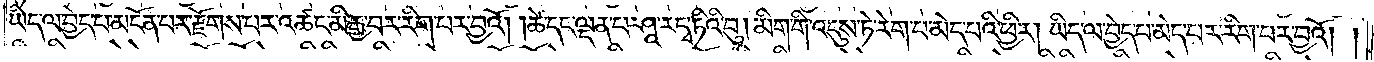ཡིད་ལ་བྱེད་པ་མངོན་པར་རྫོགས་པར་འཚང་མི་རྒྱ་བར་རིག་པར་བྱའོ། །ཚེ་དང་ལྡན་པ་ཤཱ་ར་དྭ་ཏིའི་བུ། མིག་གི་འདུས་ཏེ་རེག་པ་མེད་པའི་ཕྱིར། ཡིད་ལ་བྱེད་པ་མེད་པར་རིག་པར་བྱའོ། །
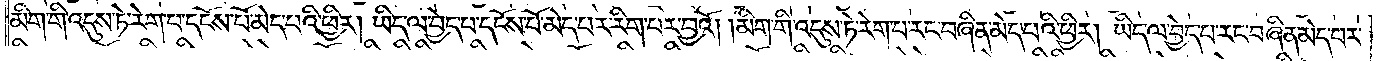མིག་གི་འདུས་ཏེ་རེག་པ་དངོས་པོ་མེད་པའི་ཕྱིར། ཡིད་ལ་བྱེད་པ་དངོས་པོ་མེད་པར་རིག་པར་བྱའོ། །མིག་གི་འདུས་ཏེ་རེག་པ་རང་བཞིན་མེད་པའི་ཕྱིར། ཡིད་ལ་བྱེད་པ་རང་བཞིན་མེད་པར་
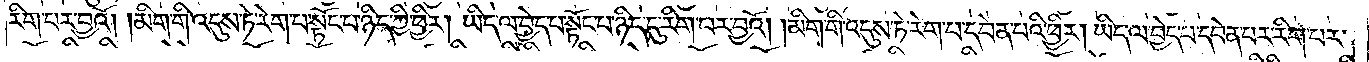རིག་པར་བྱའོ། །མིག་གི་འདུས་ཏེ་རེག་པ་སྟོང་པ་ཉིད་ཀྱི་ཕྱིར། ཡིད་ལ་བྱེད་པ་སྟོང་པ་ཉིད་དུ་རིག་པར་བྱའོ། །མིག་གི་འདུས་ཏེ་རེག་པ་དབེན་པའི་ཕྱིར། ཡིད་ལ་བྱེད་པ་དབེན་པར་རིག་པར་
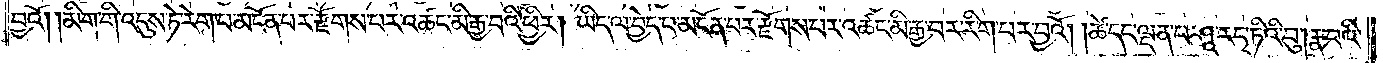བྱའོ༏ ༏མིག་གི་འདུས་ཏེ་རེག་པ་མངོན་པར་རྫོགས་པར་འཚང་མི་རྒྱ་བའི་ཕྱིར། ཡིད་ལ་བྱེད་པ་མངོན་པར་རྫོགས་པར་འཚང་མི་རྒྱ་བར་རིག་པར་བྱའོ། །ཚེ་དང་ལྡན་པ་ཤཱ་ར་དྭ་ཏིའི་བུ། རྣ་བའི་
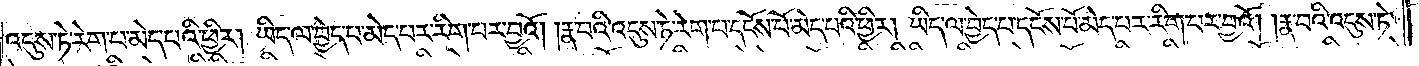འདུས་ཏེ་རེག་པ་མེད་པའི་ཕྱིར། ཡིད་ལ་བྱེད་པ་མེད་པར་རིག་པར་བྱའོ། །རྣ་བའི་འདུས་ཏེ་རེག་པ་དངོས་པོ་མེད་པའི་ཕྱིར། ཡིད་ལ་བྱེད་པ་དངོས་པོ་མེད་པར་རིག་པར་བྱའོ། །རྣ་བའི་འདུས་ཏེ་
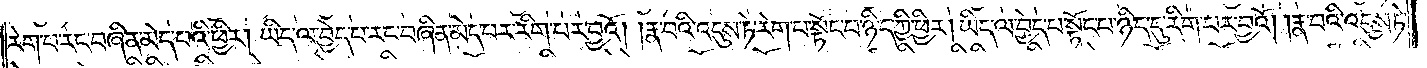རེག་པ་རང་བཞིན་མེད་པའི་ཕྱིར། ཡིད་ལ་བྱེད་པ་རང་བཞིན་མེད་པར་རིག་པར་བྱའོ། །རྣ་བའི་འདུས་ཏེ་རེག་པ་སྟོང་པ་ཉིད་ཀྱི་ཕྱིར། ཡིད་ལ་བྱེད་པ་སྟོང་པ་ཉིད་དུ་རིག་པར་བྱའོ། །རྣ་བའི་འདུས་ཏེ་
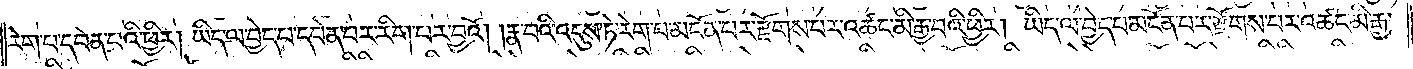རེག་པ་དབེན་པའི་ཕྱིར། ཡིད་ལ་བྱེད་པ་དབེན་པར་རིག་པར་བྱའོ། །རྣ་བའི་འདུས་ཏེ་རེག་པ་མངོན་པར་རྫོགས་པར་འཚང་མི་རྒྱ་བའི་ཕྱིར། ཡིད་ལ་བྱེད་པ་མངོན་པར་རྫོགས་པར་འཚང་མི་རྒྱ་
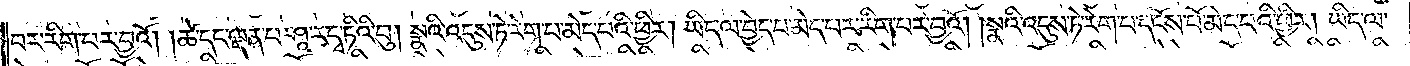བར་རིག་པར་བྱའོ། །ཚེ་དང་ལྡན་པ་ཤཱ་ར་དྭ་ཏིའི་བུ། སྣའི་འདུས་ཏེ་རེག་པ་མེད་པའི་ཕྱིར། ཡིད་ལ་བྱེད་པ་མེད་པར་རིག་པར་བྱའོ། །སྣའི་འདུས་ཏེ་རེག་པ་དངོས་པོ་མེད་པའི་ཕྱིར། ཡིད་ལ་
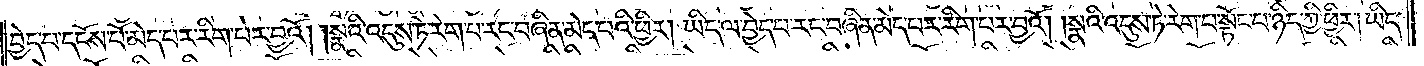བྱེད་པ་དངོས་པོ་མེད་པར་རིག་པར་བྱའོ། །སྣའི་འདུས་ཏེ་རེག་པ་རང་བཞིན་མེད་པའི་ཕྱིར། ཡིད་ལ་བྱེད་པ་རང་བཞིན་མེད་པར་རིག་པར་བྱའོ། །སྣའི་འདུས་ཏེ་རེག་པ་སྟོང་པ་ཉིད་ཀྱི་ཕྱིར། ཡིད་
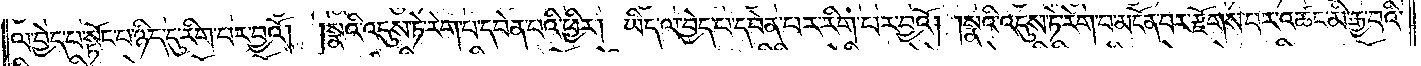ལ་བྱེད་པ་སྟོང་པ་ཉིད་དུ་རིག་པར་བྱའོ། །སྣའི་འདུས་ཏེ་རེག་པ་དབེན་པའི་ཕྱིར། ཡིད་ལ་བྱེད་པ་དབེན་པར་རིག་པར་བྱའོ། །སྣའི་འདུས་ཏེ་རེག་པ་མངོན་པར་རྫོགས་པར་འཚང་མི་རྒྱ་བའི་
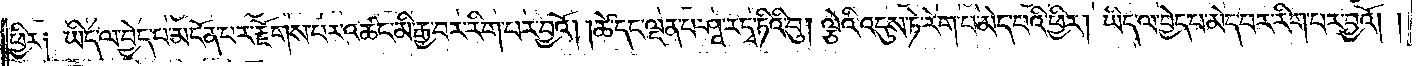ཕྱིར༏ ཡིད་ལ་བྱེད་པ་མངོན་པར་རྫོགས་པར་འཚང་མི་རྒྱ་བར་རིག་པར་བྱའོ། །ཚེ་དང་ལྡན་པ་ཤཱ་ར་དྭ་ཏིའི་བུ། ལྕེའི་འདུས་ཏེ་རེག་པ་མེད་པའི་ཕྱིར། ཡིད་ལ་བྱེད་པ་མེད་པར་རིག་པར་བྱའོ། །
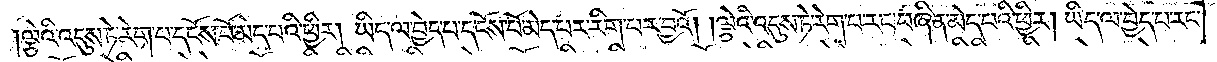ལྕེའི་འདུས་ཏེ་རེག་པ་དངོས་པོ་མེད་པའི་ཕྱིར། ཡིད་ལ་བྱེད་པ་དངོས་པོ་མེད་པར་རིག་པར་བྱའོ། །ལྕེའི་འདུས་ཏེ་རེག་པ་རང་བཞིན་མེད་པའི་ཕྱིར། ཡིད་ལ་བྱེད་པ་རང་
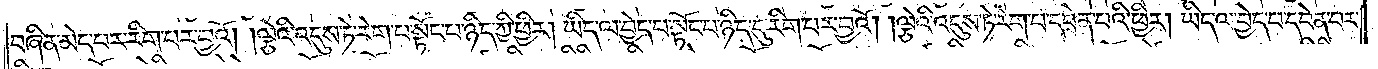བཞིན་མེད་པར་རིག་པར་བྱའོ། །ལྕེའི་འདུས་ཏེ་རེག་པ་སྟོང་པ་ཉིད་ཀྱི་ཕྱིར། ཡིད་ལ་བྱེད་པ་སྟོང་པ་ཉིད་དུ་རིག་པར་བྱའོ། །ལྕེའི་འདུས་ཏེ་རེག་པ་དབེན་པའི་ཕྱིར། ཡིད་ལ་བྱེད་པ་དབེན་པར་
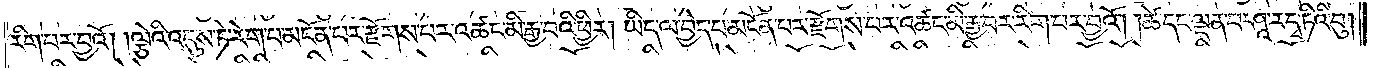རིག་པར་བྱའོ། །ལྕེའི་འདུས་ཏེ་རེག་པ་མངོན་པར་རྫོགས་པར་འཚང་མི་རྒྱ་བའི་ཕྱིར། ཡིད་ལ་བྱེད་པ་མངོན་པར་རྫོགས་པར་འཚང་མི་རྒྱ་བར་རིག་པར་བྱའོ། །ཚེ་དང་ལྡན་པ་ཤཱ་ར་དྭ་ཏིའི་བུ།
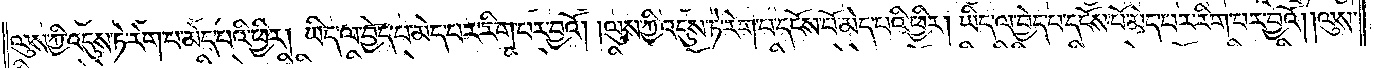ལུས་ཀྱི་འདུས་ཏེ་རེག་པ་མེད་པའི་ཕྱིར། ཡིད་ལ་བྱེད་པ་མེད་པར་རིག་པར་བྱའོ། །ལུས་ཀྱི་འདུས་ཏེ་རེག་པ་དངོས་པོ་མེད་པའི་ཕྱིར། ཡིད་ལ་བྱེད་པ་དངོས་པོ་མེད་པར་རིག་པར་བྱའོ། །ལུས་
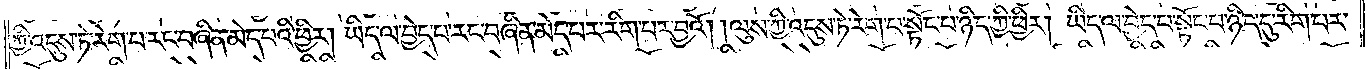ཀྱི་འདུས་ཏེ་རེག་པ་རང་བཞིན་མེད་པའི་ཕྱིར། ཡིད་ལ་བྱེད་པ་རང་བཞིན་མེད་པར་རིག་པར་བྱའོ། །ལུས་ཀྱི་འདུས་ཏེ་རེག་པ་སྟོང་པ་ཉིད་ཀྱི་ཕྱིར། ཡིད་ལ་བྱེད་པ་སྟོང་པ་ཉིད་དུ་རིག་པར་
